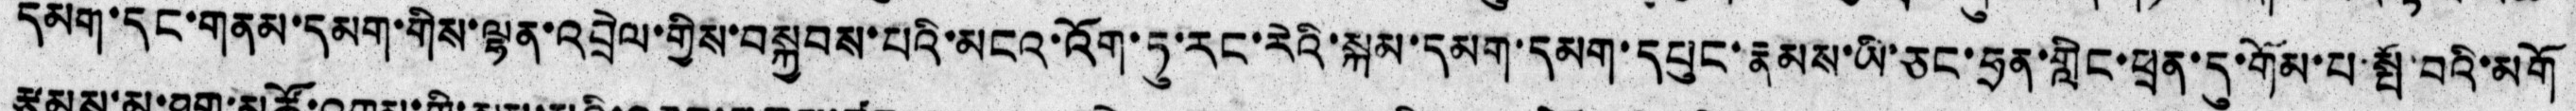དམག་དང་གནམ་དམག་གིས་ལྷན་འབྲེལ་གྱིས་བསྐྱབས་པའི་མངའ་འོག་ཏུ་རང་རེའི་སྐམ་དམག་དམག་དཔུང་རྣམས་ཡི་ཅང་ཧྲན་གླིང་ཕྲན་དུ་གོམ་པ་སྤོ་བའི་མགོ
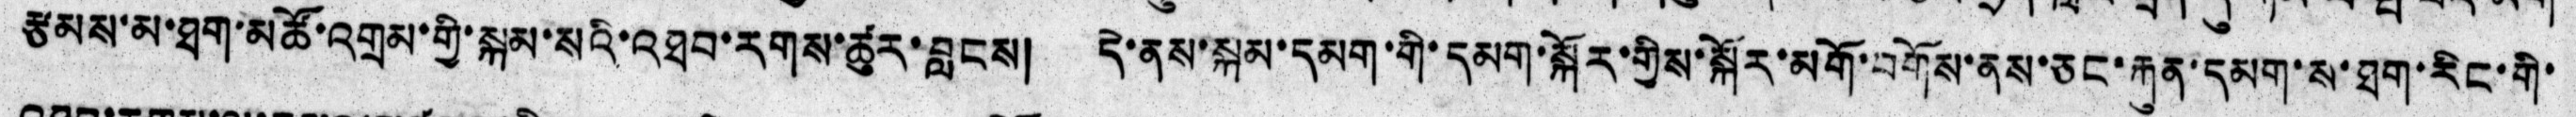རྩམས་མ་ཐག་མཚོ་འགྲམ་གྱི་སྐམ་སའི་འཐབ་རགས་ཚུར་བླངས། དེ་ནས་སྐམ་དམག་གི་དམག་སྐོར་གྱིས་སྐོར་མགོ་བགོས་ནས་ཅང་རྐུན་དམག་ས་ཐག་རིང་གི་
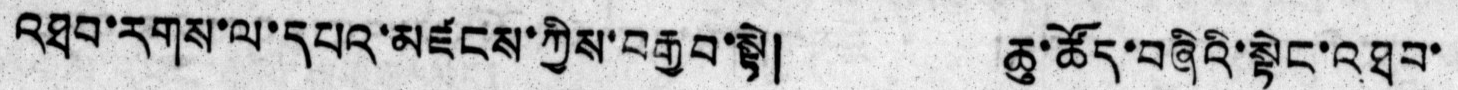འཐབ་རགས་ལ་དཔའ་མཛངས་ཀྱིས་བརྒྱབ་སྟེ། ཆུ་ཚོད་བཞིའི་སྟེང་འཐབ་
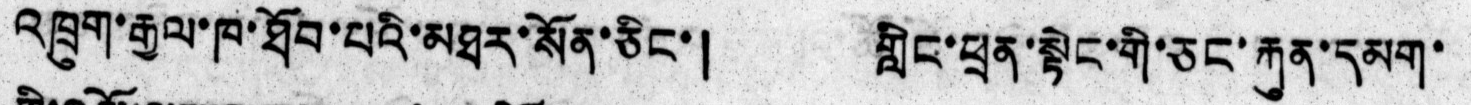འཁྲུག་རྒྱལ་ཁ་ཐོབ་པའི་མཐར་སོན་ཅིང་། གླིང་ཕྲན་སྟེང་གི་ཅང་རྐུན་དམག་
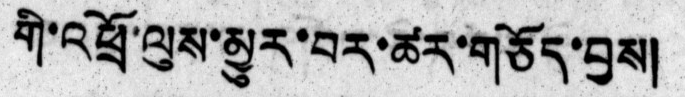གི་འཕྲོ་ལུས་མྱུར་བར་ཚར་གཅོད་བྱས།
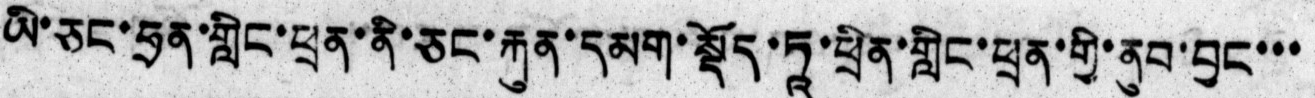ཡི་ཅང་ཧྲན་གླིང་ཕྲན་ནི་ཅང་རྐུན་དམག་སྡོད་ཏཱ་ཕྲིན་གླིང་ཕྲན་གྱི་ནུབ་བྱང་་་
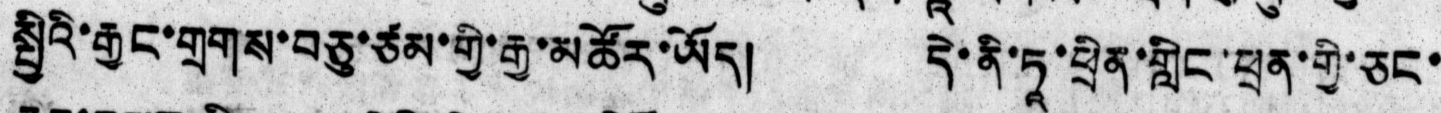སྤྱིའི་རྒྱང་གྲགས་བཅུ་ཙམ་གྱི་རྒྱ་མཚོར་ཡོད། དེ་ནི་ཏཱ་ཕྲིན་གླིང་ཕྲན་གྱི་ཅང་
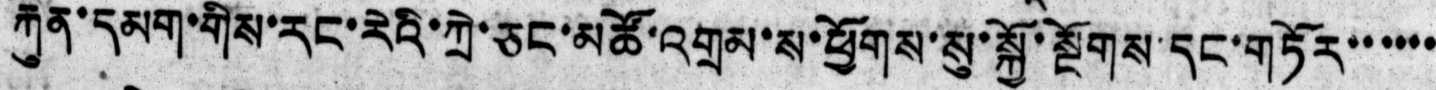རྐུན་དམག་གིས་རང་རེའི་ཀྲེ་ཅང་མཚོ་འགྲམ་ས་ཕྱོགས་སུ་སྐྱོ་སྔོགས་དང་གཏོར་་་་་་
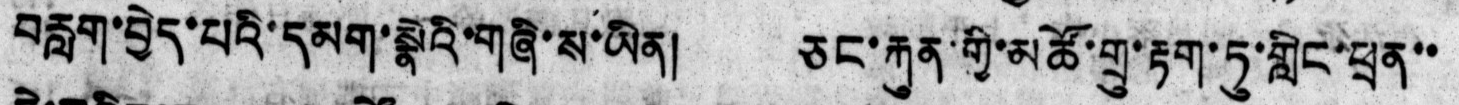བརླག་བྱེད་པའི་དམག་སྣེའི་གཞི་ས་ཡིན། ཅང་རྐུན་གྱི་མཚོ་གྲུ་རྟག་ཏུ་གླིང་ཕྲན་་
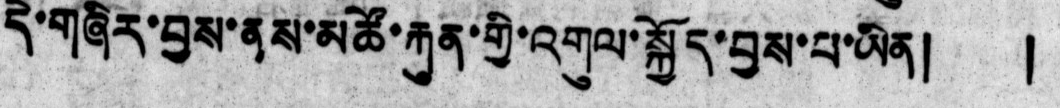དེ་གཞིར་བྱས་ནས་མཚོ་རྐུན་གྱི་འགུལ་སྐྱོད་བྱས་པ་ཡིན།  །
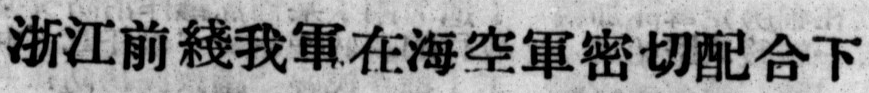浙江前綫我軍在海空軍密切配合下
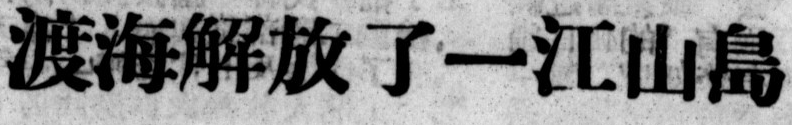渡海解放了一江山島
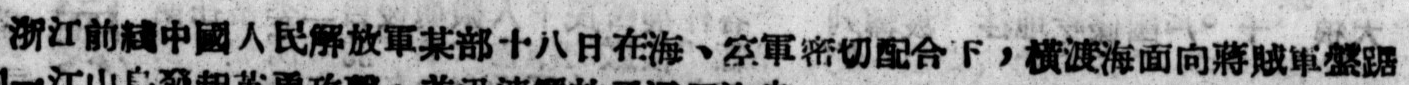浙江前綫中國人民解放軍某部十八日在海、空軍密切配合下，橫渡海面向蔣賊軍盤踞
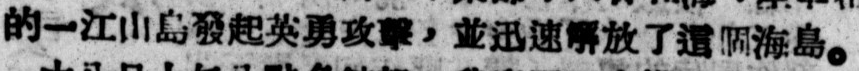的一江山島發起英勇攻擊，並迅速解放了這個海島。
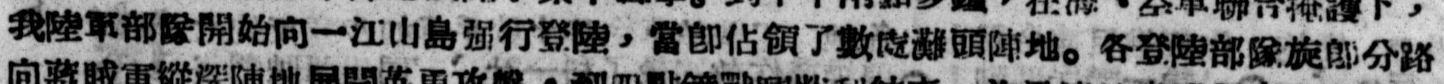我陸軍部隊開始向一江山島強行登陸，當卽佔領了數處灘頭陣地。各登陸部隊旋卽分路
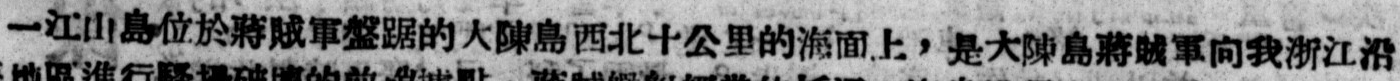一江山島位於蔣賊軍盤踞的大陳島西北十公里的海面上，是大陳島蔣賊軍向我浙江沿
